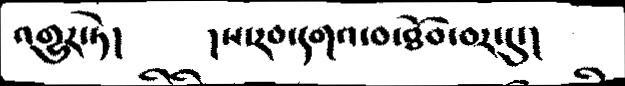འགྱུར་ཏེ།   །ས་རབ་དགའ་བ་ཐོབ་བར་དུ་།
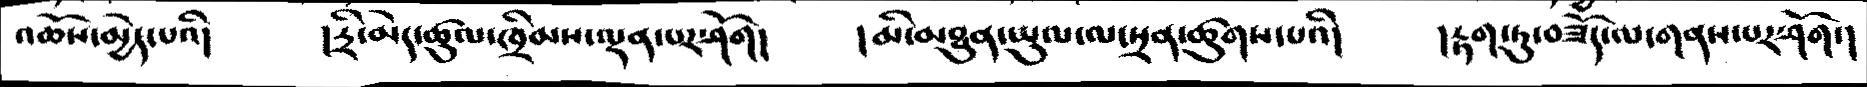འཆོས་མྱེད་པའི།    །དྲི་མེད་ཚུལ་ཁྲིམས་ལྡན་པར་ཤོག།     །མི་མཐུན་ཡུལ་ལ་སྲན་ཚུགས་པའི།    །རྟག་ཏུ་བཟོད་ལ་གནས་པར་ཤོག་།
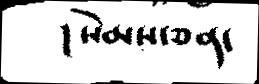།སེམས་ཅན་
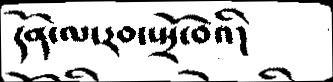དོན་ལ་རབ་སྤྲོ་བའི།
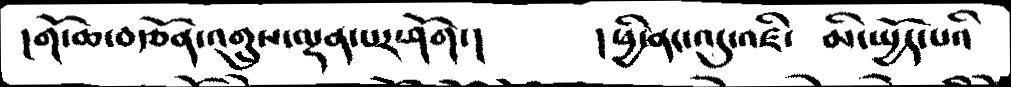།གོ་ཆ་བརྩོན་འགྲུས་ལྡན་པར་ཤོག་།     །ཕྱི་ནང་འདུ་འཛི་   མི་སྤྱོད་པའི
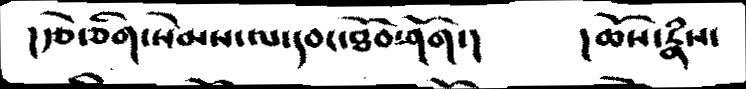།རྩེ་ཅིག་སེམས་ལ་དབང་ཐོབ་ཤེག་།      །ཆོས་རྣཾས་
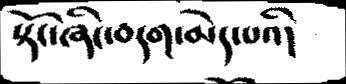སྟོང་ཞིང་བདག་མེད་པའི།
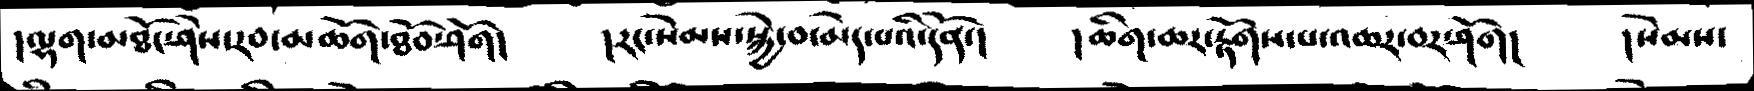།ལྷག་མཐོང་ཤེས་རབ་མཆོག་ཐོབ་ཤོག།   །རང་སེམས་སྐྱེ་བ་མེད་པའི་དོན་།   །ཆིག་ཆར་རྟོགས་པ་འཆར་བར་ཤོག།   །སེམས་
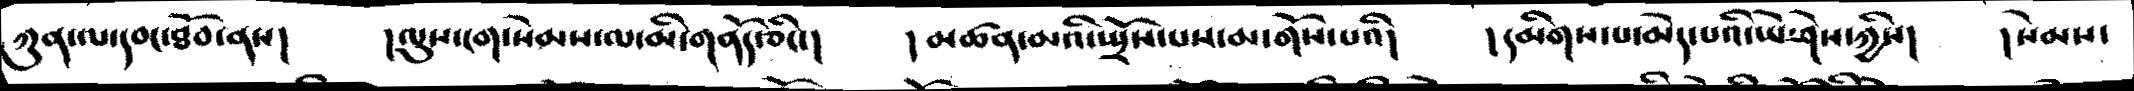ཀུན་ལ་དབང་ཐོབ་ནས།   །ལུས་ངག་སེམས་ལ་མི་གནོད་ཅིང་།  །མཚན་མའི་སྤྲོས་པས་མ་གོས་པའི།   །དམིགས་པ་མེད་པའི་ཡེ་ཤེས་ཀྱིས་།   །སེམས་
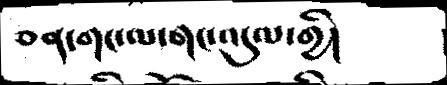ཅན་གང་ལ་གང་འདུལ་གྱི།
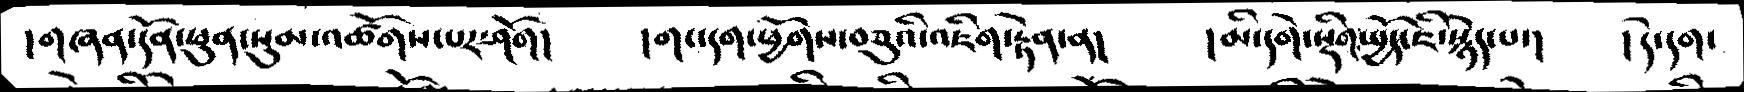།གཞན་དོན་ཕུན་སུམ་འཚོགས་པར་ཤོག།    །གང་དག་ཕྱོགས་བཅུའི་འཇིག་རྟེན་ན།    །མི་དགེ་སྡིགསྤྱོད་ཇི་སྙེད་པ་།      །དེ་དག་
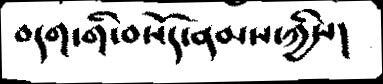བདག་གི་བསོད་ནམས་ཀྱིས།
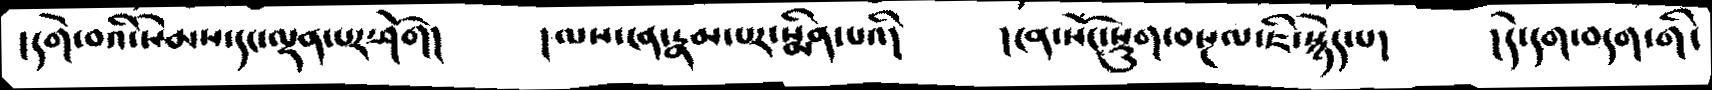།དགེ་བའི་སེམས་དང་ལྡན་པར་ཤོག།      །ལས་ངན་རྣམ་པར་སྨིན་པའི།       །ངན་སོང་སྡུག་བསྔལ་ཇི་སྙེད་པ།     །དེ་དག་བདག་གི་
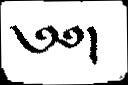༄༅།
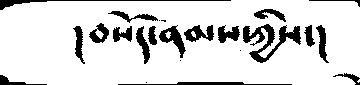།བསོད་ནམས་ཀྱིས་།
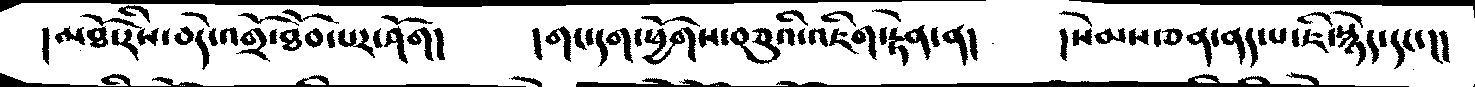།མཐོ་རིས་བདེ་འགྲོ་ཐོབ་པར་ཤོག།   །གང་དག་ཕྱོགས་བཅུའི་འཇིག་རྟེན་ན།   །སེམས་ཅན་ནད་པ་ཇི་སྙེད་དང་།།
